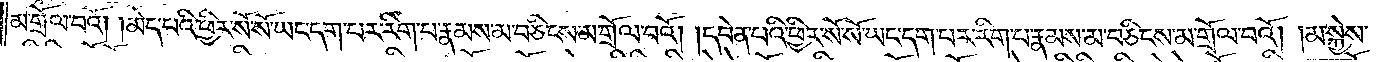མ་གྲོལ་བའོ། །མེད་པའི་ཕྱིར་སོ་སོ་ཡང་དག་པར་རིག་པ་རྣམས་མ་བཅིངས་མ་གྲོལ་བའོ། །དབེན་པའི་ཕྱིར་སོ་སོ་ཡང་དག་པར་རིག་པ་རྣམས་མ་བཅིངས་མ་གྲོལ་བའོ། །མ་སྐྱེས་
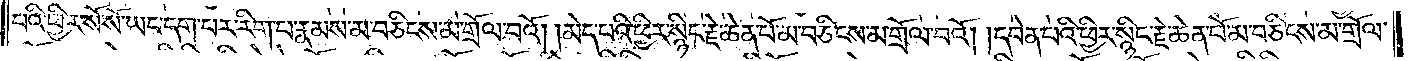པའི་ཕྱིར་སོ་སོ་ཡང་དག་པར་རིག་པ་རྣམས་མ་བཅིངས་མ་གྲོལ་བའོ། །མེད་པའི་ཕྱིར་སྙིང་རྗེ་ཆེན་པོ་མ་བཅིངས་མ་གྲོལ་བའོ། །དབེན་པའི་ཕྱིར་སྙིང་རྗེ་ཆེན་པོ་མ་བཅིངས་མ་གྲོལ་
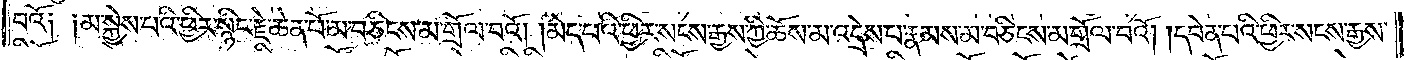བའོ༑ ༑མ་སྐྱེས་པའི་ཕྱིར་སྙིང་རྗེ་ཆེན་པོ་མ་བཅིངས་མ་གྲོལ་བའོ། །མེད་པའི་ཕྱིར་སངས་རྒྱས་ཀྱི་ཆོས་མ་འདྲེས་པ་རྣམས་མ་བཅིངས་མ་གྲོལ་བའོ། །དབེན་པའི་ཕྱིར་སངས་རྒྱས་
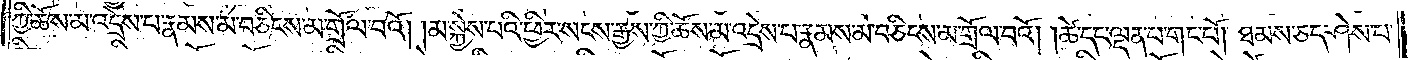ཀྱི་ཆོས་མ་འདྲེས་པ་རྣམས་མ་བཅིངས་མ་གྲོལ་བའོ། །མ་སྐྱེས་པའི་ཕྱིར་སངས་རྒྱས་ཀྱི་ཆོས་མ་འདྲེས་པ་རྣམས་མ་བཅིངས་མ་གྲོལ་བའོ། །ཚེ་དང་ལྡན་པ་གང་པོ། ཐམས་ཅད་ཤེས་པ་
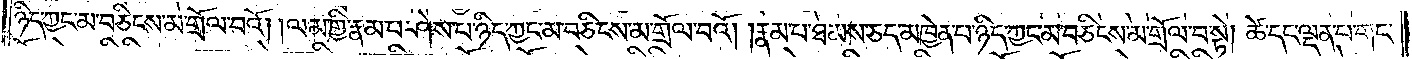ཉིད་ཀྱང་མ་བཅིངས་མ་གྲོལ་བའོ། །ལམ་གྱི་རྣམ་པ་ཤེས་པ་ཉིད་ཀྱང་མ་བཅིངས་མ་གྲོལ་བའོ། །རྣམ་པ་ཐམས་ཅད་མཁྱེན་པ་ཉིད་ཀྱང་མ་བཅིངས་མ་གྲོལ་བ་སྟེ། །ཚེ་དང་ལྡན་པ་གང་
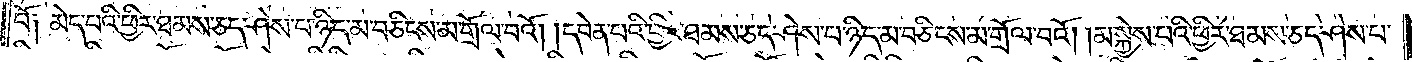པོ༑ མེད་པའི་ཕྱིར་ཐམས་ཅད་ཤེས་པ་ཉིད་མ་བཅིངས་མ་གྲོལ་བའོ། །དབེན་པའི་ཕྱིར་ཐམས་ཅད་ཤེས་པ་ཉིད་མ་བཅིངས་མ་གྲོལ་བའོ། །མ་སྐྱེས་པའི་ཕྱིར་ཐམས་ཅད་ཤེས་པ་
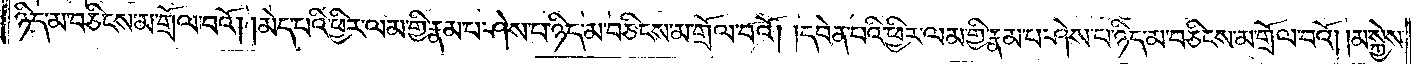ཉིད་མ་བཅིངས་མ་གྲོལ་བའོ། །མེད་པའི་ཕྱིར་ལམ་གྱི་རྣམ་པ་ཤེས་པ་ཉིད་མ་བཅིངས་མ་གྲོལ་བའོ། །དབེན་པའི་ཕྱིར་ལམ་གྱི་རྣམ་པ་ཤེས་པ་ཉིད་མ་བཅིངས་མ་གྲོལ་བའོ། །མ་སྐྱེས་
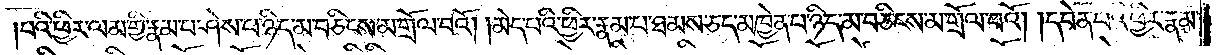པའི་ཕྱིར་ལམ་གྱི་རྣམ་པ་ཤེས་པ་ཉིད་མ་བཅིངས་མ་གྲོལ་བའོ། །མེད་པའི་ཕྱིར་རྣམ་པ་ཐམས་ཅད་མཁྱེན་པ་ཉིད་མ་བཅིངས་མ་གྲོལ་བའོ། །དབེན་པའི་ཕྱིར་རྣམ་
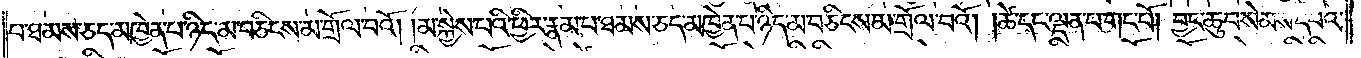པ་ཐམས་ཅད་མཁྱེན་པ་ཉིད་མ་བཅིངས་མ་གྲོལ་བའོ། །མ་སྐྱེས་པའི་ཕྱིར་རྣམ་པ་ཐམས་ཅད་མཁྱེན་པ་ཉིད་མ་བཅིངས་མ་གྲོལ་བའོ། །ཚེ་དང་ལྡན་པ་གང་པོ། བྱང་ཆུབ་སེམས་དཔའ་
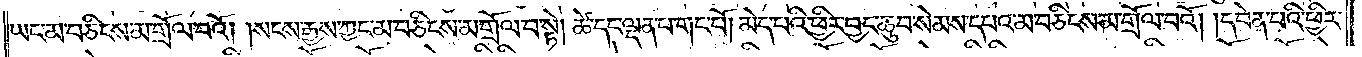ཡང་མ་བཅིངས་མ་གྲོལ་བའོ། །སངས་རྒྱས་ཀྱང་མ་བཅིངས་མ་གྲོལ་བ་སྟེ། ཚེ་དང་ལྡན་པ་གང་པོ། མེད་པའི་ཕྱིར་བྱང་ཆུབ་སེམས་དཔའ་མ་བཅིངས་མ་གྲོལ་བའོ། །དབེན་པའི་ཕྱིར་
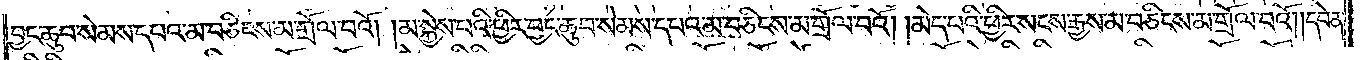བྱང་ཆུབ་སེམས་དཔའ་མ་བཅིངས་མ་གྲོལ་བའོ། །མ་སྐྱེས་པའི་ཕྱིར་བྱང་ཆུབ་སེམས་དཔའ་མ་བཅིངས་མ་གྲོལ་བའོ། །མེད་པའི་ཕྱིར་སངས་རྒྱས་མ་བཅིངས་མ་གྲོལ་བའོ། །དབེན་
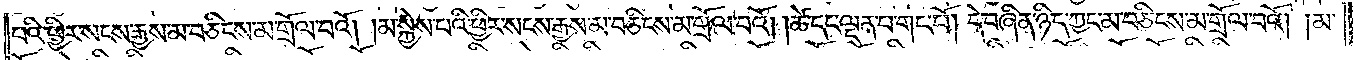པའི་ཕྱིར་སངས་རྒྱས་མ་བཅིངས་མ་གྲོལ་བའོ། །མ་སྐྱེས་པའི་ཕྱིར་སངས་རྒྱས་མ་བཅིངས་མ་གྲོལ་བའོ། །ཚེ་དང་ལྡན་པ་གང་པོ། དེ་བཞིན་ཉིད་ཀྱང་མ་བཅིངས་མ་གྲོལ་བའོ། །མ་
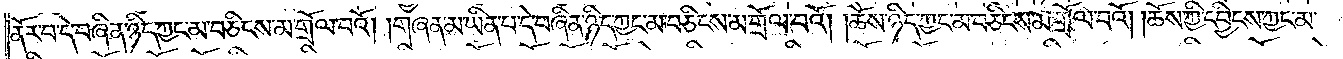ནོར་བ་དེ་བཞིན་ཉིད་ཀྱང་མ་བཅིངས་མ་གྲོལ་བའོ། །གཞན་མ་ཡིན་པ་དེ་བཞིན་ཉིད་ཀྱང་མ་བཅིངས་མ་གྲོལ་བའོ། །ཆོས་ཉིད་ཀྱང་མ་བཅིངས་མ་གྲོལ་བའོ། །ཆོས་ཀྱི་དབྱིངས་ཀྱང་མ་
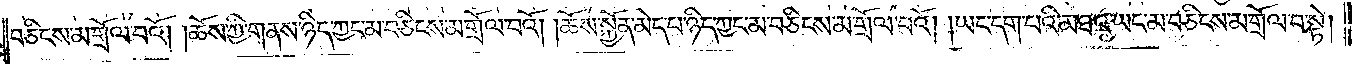བཅིངས་མ་གྲོལ་བའོ། །ཆོས་ཀྱི་གནས་ཉིད་ཀྱང་མ་བཅིངས་མ་གྲོལ་བའོ། །ཆོས་སྐྱོན་མེད་པ་ཉིད་ཀྱང་མ་བཅིངས་མ་གྲོལ་བའོ། །ཡང་དག་པའི་མཐའ་ཡང་མ་བཅིངས་མ་གྲོལ་བ་སྟེ།
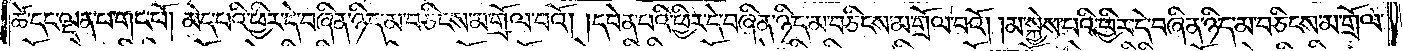ཚེ་དང་ལྡན་པ་གང་པོ། མེད་པའི་ཕྱིར་དེ་བཞིན་ཉིད་མ་བཅིངས་མ་གྲོལ་བའོ། །དབེན་པའི་ཕྱིར་དེ་བཞིན་ཉིད་མ་བཅིངས་མ་གྲོལ་བའོ། །མ་སྐྱེས་པའི་ཕྱིར་དེ་བཞིན་ཉིད་མ་བཅིངས་མ་གྲོལ་
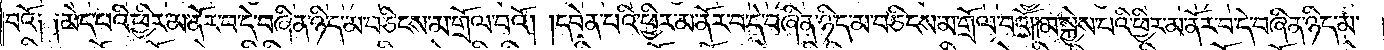བའོ། །མེད་པའི་ཕྱིར་མ་ནོར་བ་དེ་བཞིན་ཉིད་མ་བཅིངས་མ་གྲོལ་བའོ། །དབེན་པའི་ཕྱིར་མ་ནོར་བ་དེ་བཞིན་ཉིད་མ་བཅིངས་མ་གྲོལ་བའོ། །མ་སྐྱེས་པའི་ཕྱིར་མ་ནོར་བ་དེ་བཞིན་ཉིད་མ་
